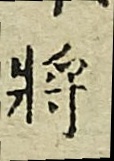將
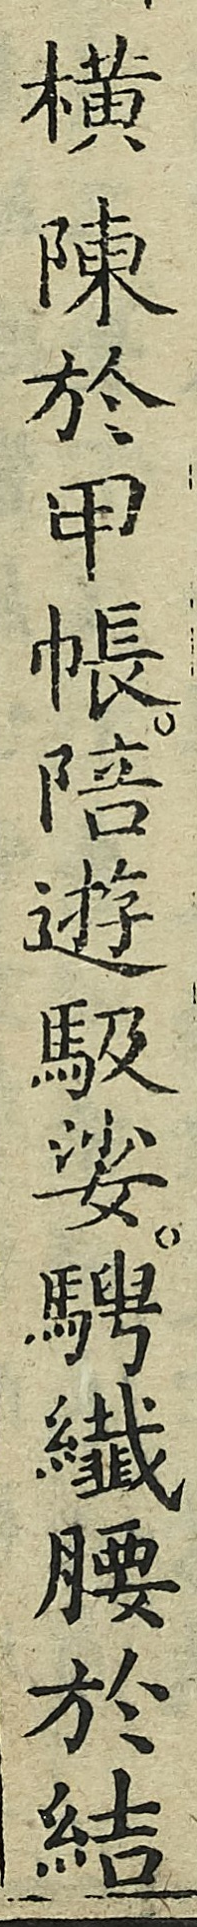橫陳於甲帳陪遊馺娑騁纎腰於結
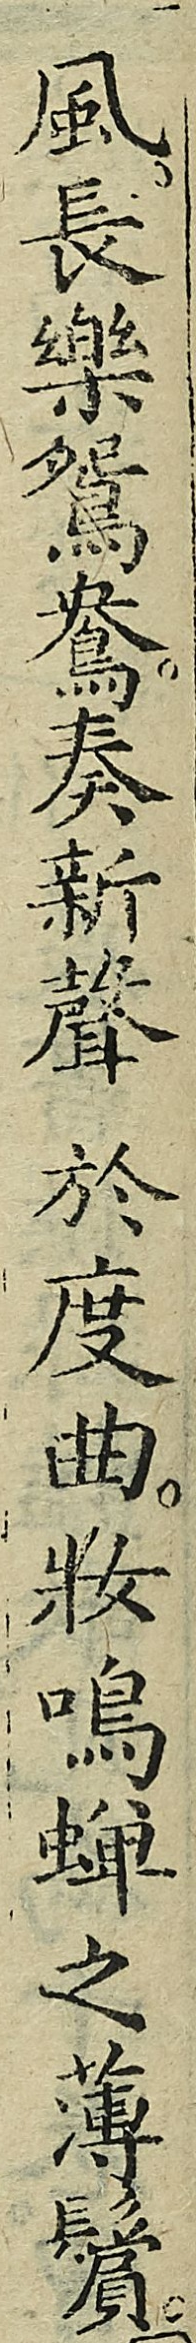風長樂鴛鴦奏新聲於度曲妝鳴蟬之薄鬢
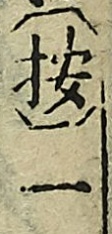（按）一
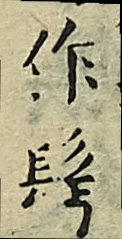作髩
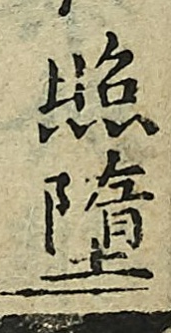照墮
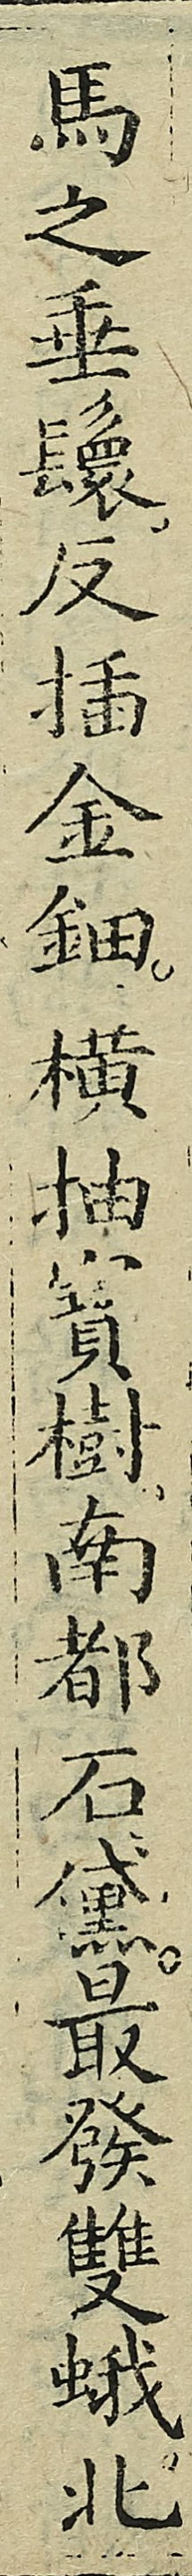馬之垂鬟反插金鈿橫抽寶樹南都石黛最發雙蛾北
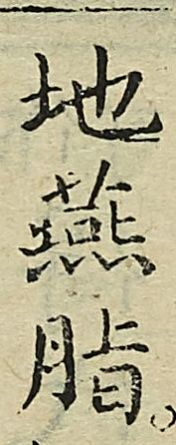地燕脂
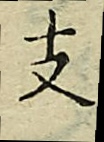支
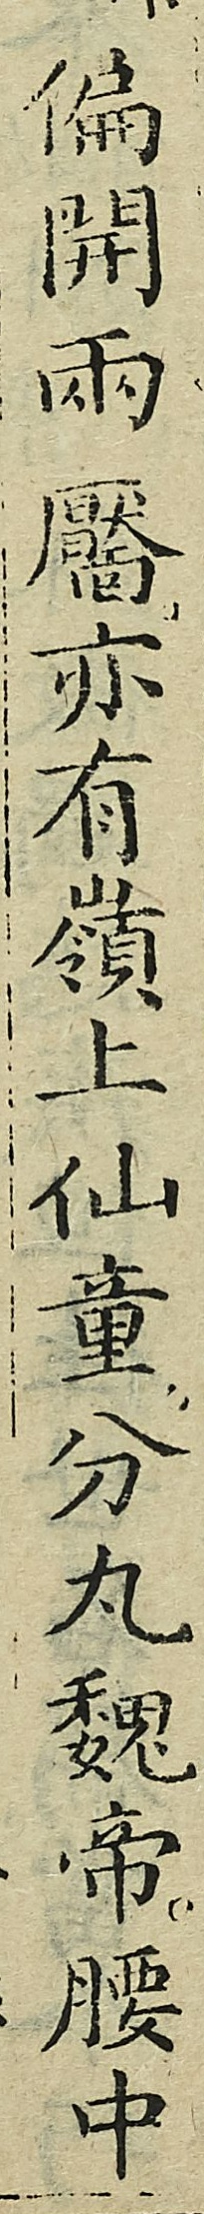偏開兩靨亦有嶺上仙童分丸魏帝腰中
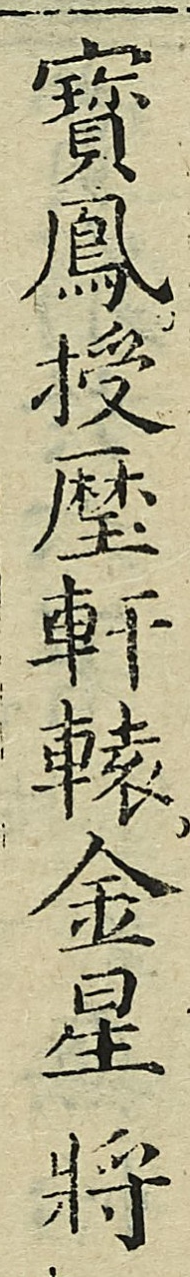寶鳳授㻺軒轅金星將
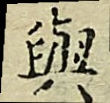與
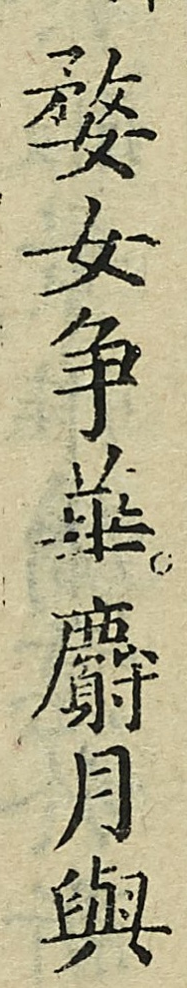婺女爭華麝月與
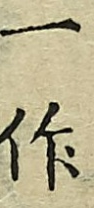一作
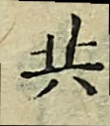共
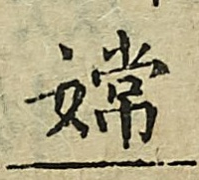嫦
